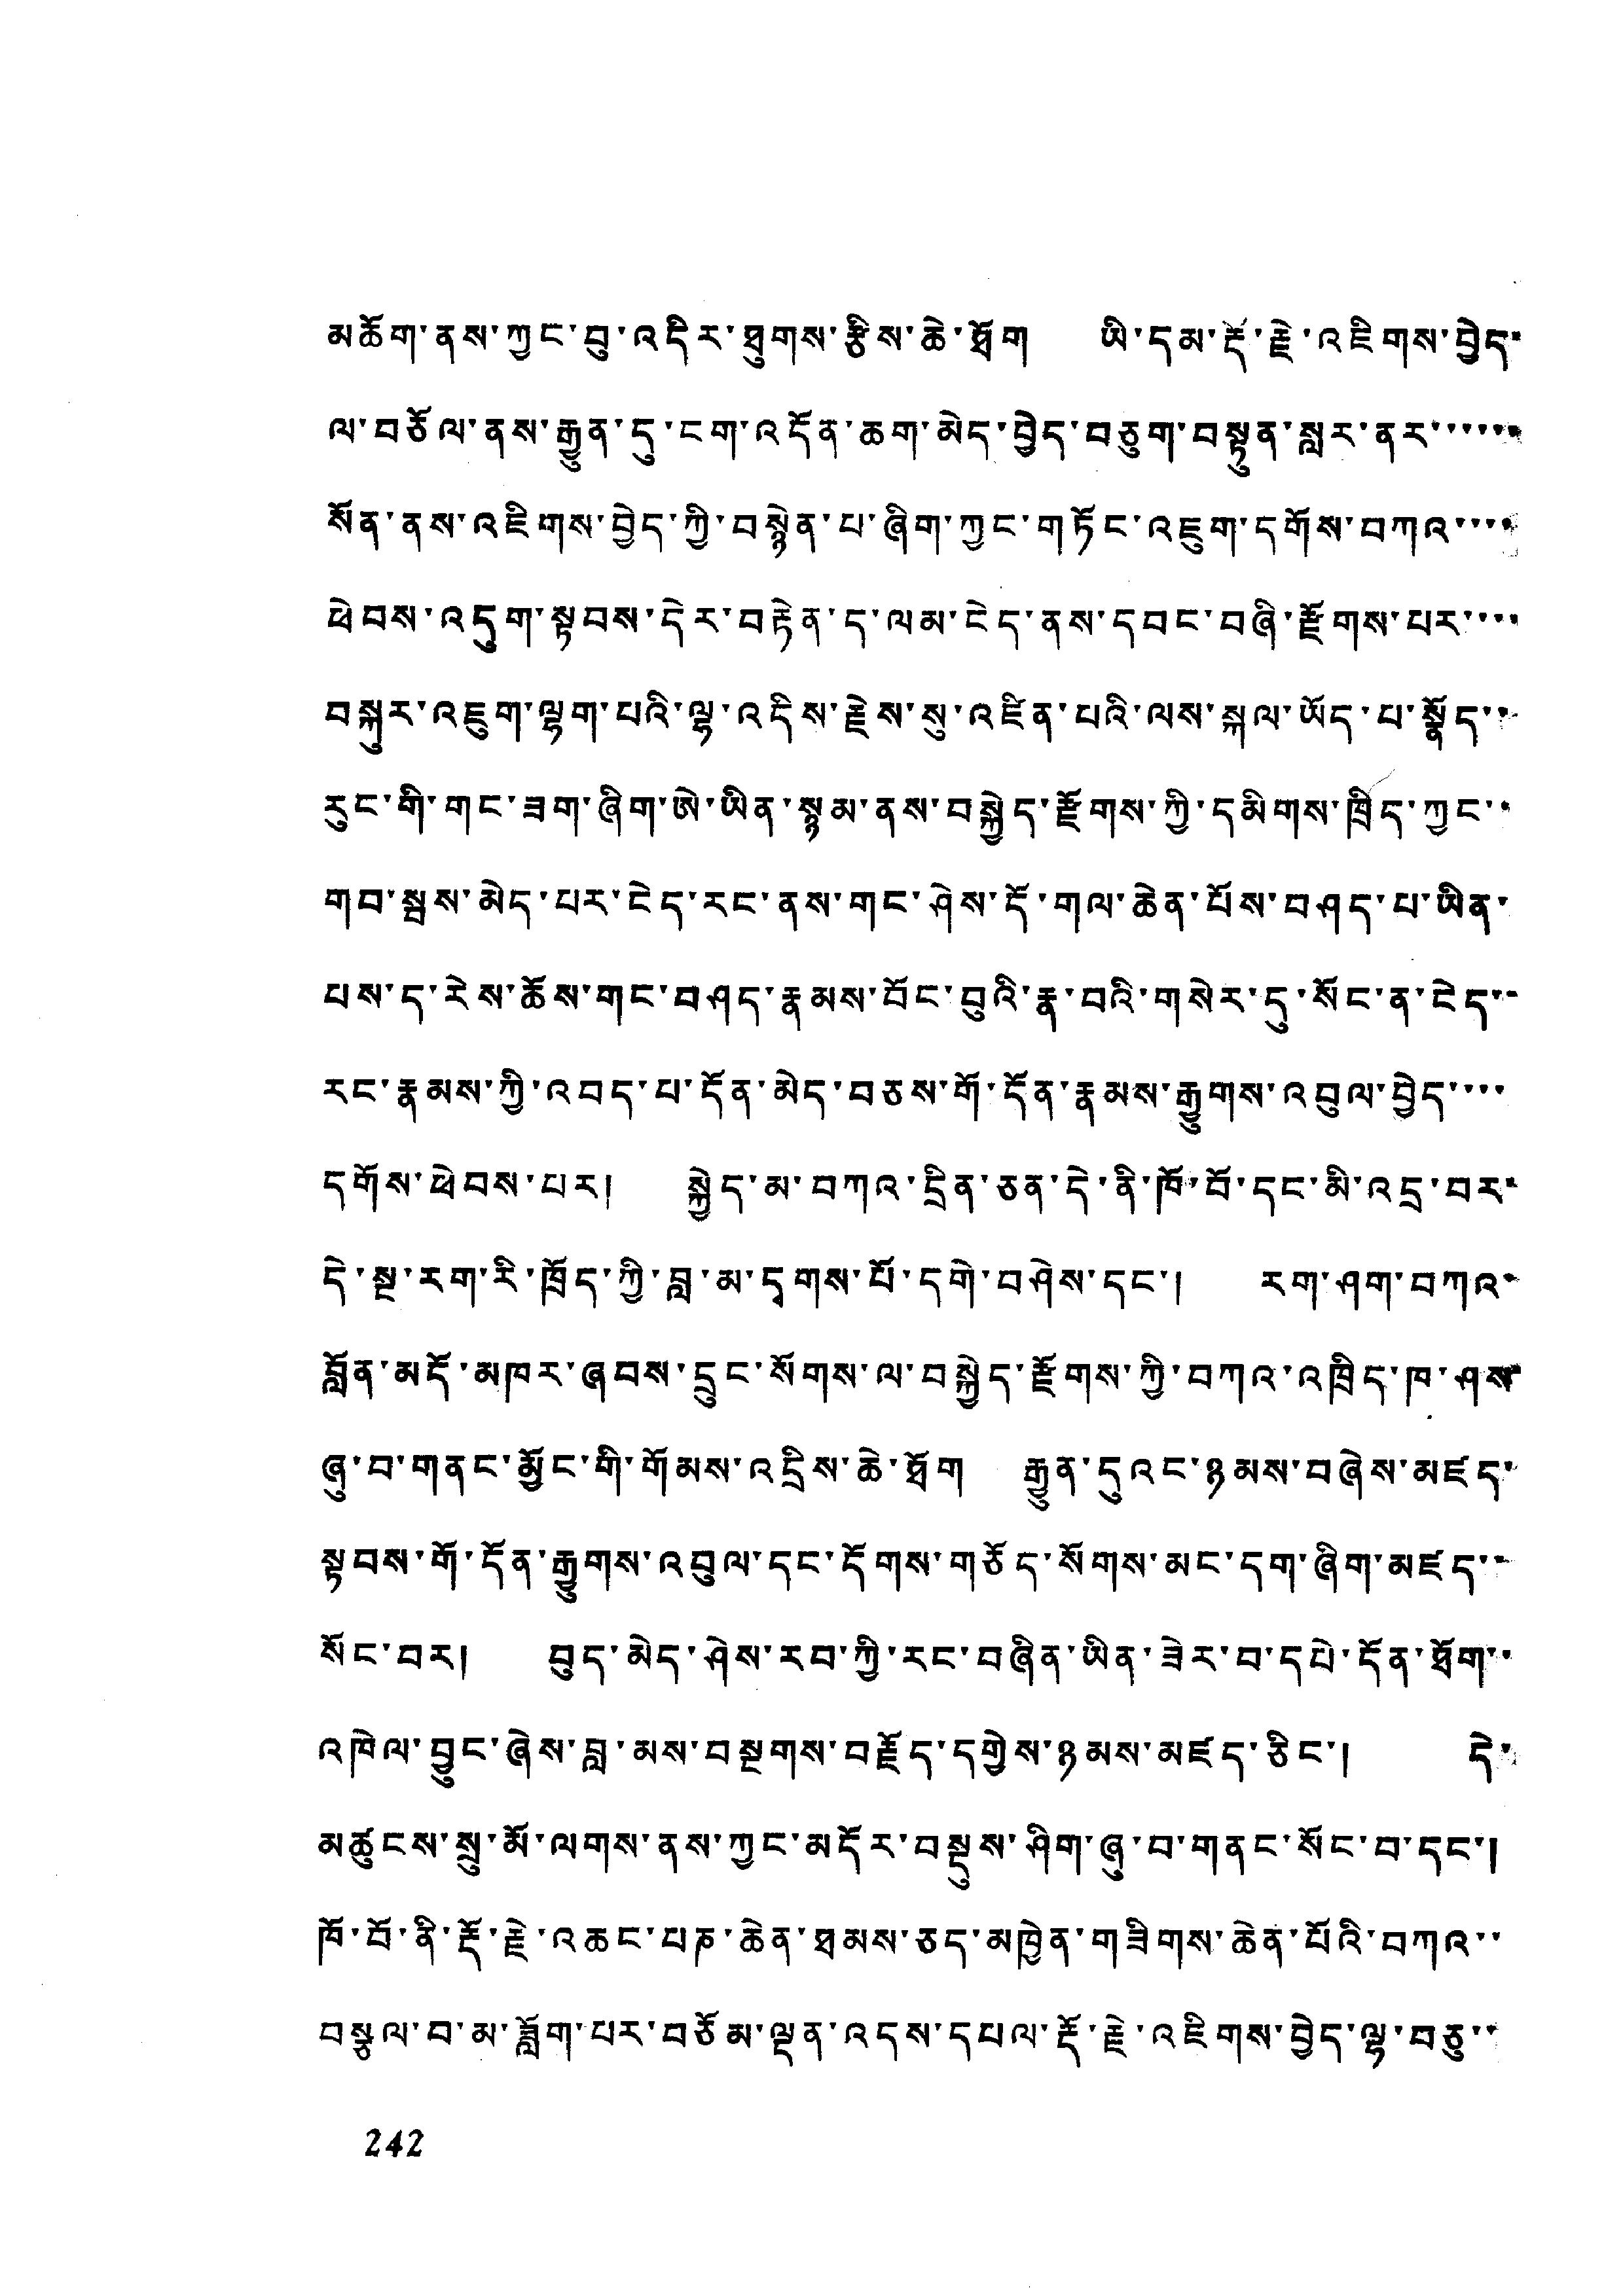མཆོག་ནས་ཀྱང་བུ་འདིར་ཐུགས་རྩིས་ཆེ་ཐོག ཡི་དམ་རྡོ་རྗེ་འཇིགས་བྱེད་
ལ་བཅོལ་ནས་རྒྱུན་དུ་ངག་འདོན་ཆག་མེད་བྱེད་བཅུག་བསྟུན་སླར་ནར་་་་་་
སོན་ནས་འཇིགས་བྱེད་ཀྱི་བསྙེན་པ་ཞིག་ཀྱང་གཏོང་འཇུག་དགོས་བཀའ་་་་
ཕེབས་འདུག་སྟབས་དེར་བརྟེན་ད་ལམ་ངེད་ནས་དབང་བཞི་རྫོགས་པར་་་་
བསྐུར་འཇུག་ལྷག་པའི་ལྷ་འདིས་རྗེས་སུ་འཛིན་པའི་ལས་སྐལ་ཡོད་པ་སྣོད་་
རུང་གི་གང་ཟག་ཞིག་ཨེ་ཡིན་སྙམ་ནས་བསྐྱེད་རྫོགས་ཀྱི་དམིགས་ཁྲིད་ཀྱང་་
གབ་སྦས་མེད་པར་ངེད་རང་ནས་གང་ཤེས་དོ་གལ་ཆེན་པོས་བཤད་པ་ཡིན་
པས་ད་རེས་ཆོས་གང་བཤད་རྣམས་བོང་བུའི་རྣ་བའི་གསེར་དུ་སོང་ན་ངེད་་
རང་རྣམས་ཀྱི་འབད་པ་དོན་མེད་བཅས་གོ་དོན་རྣམས་རྒྱུགས་འབུལ་བྱེད་་་་
དགོས་ཕེབས་པར། སྐྱེད་མ་བཀའ་དྲིན་ཅན་དེ་ནི་ཁོ་བོ་དང་མི་འདྲ་བར་
དེ་སྔ་རག་རི་ཁྲོད་ཀྱི་བླ་མ་དྭགས་པོ་དགེ་བཤེས་དང་། རག་ཤག་བཀའ་
བློན་མདོ་མཁར་ཞབས་དྲུང་སོགས་ལ་བསྐྱེད་རྫོགས་ཀྱི་བཀའ་འཁྲིད་ཁ་ཤས་
ཞུ་བ་གནང་མྱོང་གི་གོམས་འདྲིས་ཆེ་ཐོག རྒྱུན་དུའང་ཉམས་བཞེས་མཛད་
སྟབས་གོ་དོན་རྒྱུགས་འབུལ་དང་དོགས་གཅོད་སོགས་མང་དག་ཞིག་མཛད་་
སོང་བར། བུད་མེད་ཤེས་རབ་ཀྱི་རང་བཞིན་ཡིན་ཟེར་བ་དཔེ་དོན་ཐོག་་
འཁེལ་བྱུང་ཞེས་བླ་མས་བསྔགས་བརྗོད་དགྱེས་ཉམས་མཛད་ཅིང་། དེ་
མཚུངས་སྲུ་མོ་ལགས་ནས་ཀྱང་མདོར་བསྡུས་ཤིག་ཞུ་བར་གནང་སོང་བ་དང་།
ཁོ་བོ་ནི་རྡོ་རྗེ་འཆང་པཎ་ཆེན་ཐམས་ཅད་མཁྱེན་གཟིགས་ཆེན་པོའི་བཀའ་་
བསྩལ་བ་མ་ཟློག་པར་བཅོམ་ལྡན་འདས་དཔལ་རྡོ་རྗེ་འཇིགས་བྱེད་ལྷ་བཅུ་་
242
